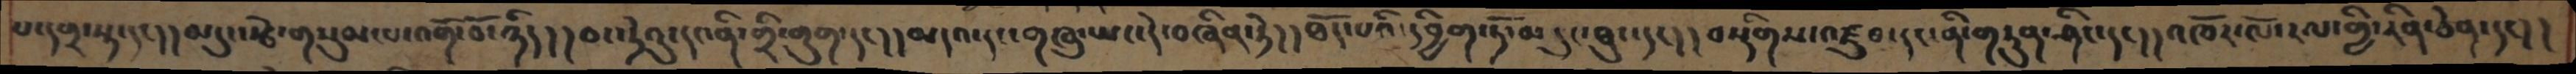པ་དགྲ་སྟ་དང། །མདུང་རྩེ་གསུམ་པ་འགོ་བོ་ཉིད། །ཅང་ཏེའུ་དང་ནི་གྲི་གུག་དང། །མདའ་དང་གཞུ་ཡང་དེ་བཞིན་ཏེ། །ཐོད་པའི་དབྱིག་ཏོ་མདུང་ཐུང་དང། །བསྡིགས་འཛུབ་དང་ནི་གཏུན་ཤིང་དང། །འཁོར་ལོ་རལ་གྱི་རིན་ཅེན་དང། །
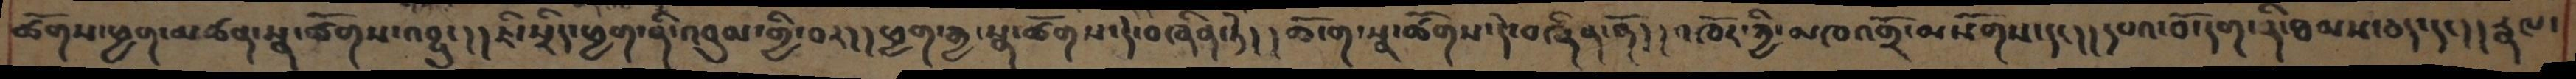ཚོགས་ཕྱག་མཚན་སྣ་ཚོགས་འབྱུང། །ཇི་སྲིད་ཕྱག་ནི་འབུམ་གྱི་བར། །ཕྱག་རྒྱ་སྣ་ཚོགས་དེ་བཞིན་ཏེ། །ཆོ་ག་སྣ་ཚོགས་དེ་བཞིན་ནོ། །འཁོར་ཀྱི་མཁའགྲོ་མསོགས་དང། །དཔའ་བོ་དག་ནི་ཐམས་ཅད་དང། །རྣལ་
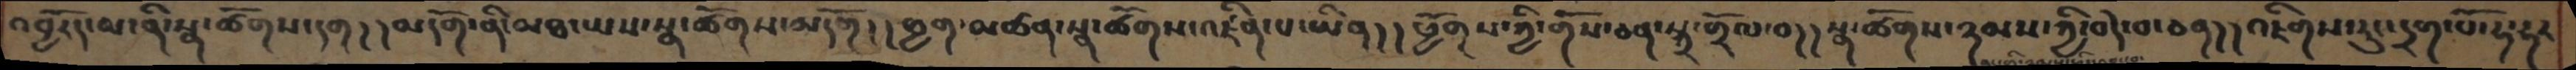འབྱོརད་མ་ནི་སྣ་ཚོགས་དག།།མདོག་ནི་མཐའ་ཡས་སྣ་ཚོགས་མདོག།།ཕྱག་མཚན་སྣ་ཚོགས་འཛིན་པ་ཡིན།།ཕྱོགས་ཀྱི་གོས་ཅན་སྐྲ་གྲོལ་བ།།སྣ་ཚོགས་ཉམས་ཀྱི་བདེ་བ་ཅན།།འཇིགས་རུང་དྲག་པོ་ཧ་ཧར
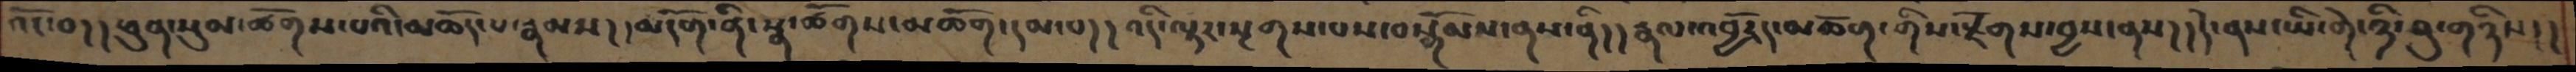འོང་བ། །ཕུན་སུམ་ཚོགས་པའི་མཆོད་པ་རྣམས། །མདོག་ནི་སྣ་ཚོགས་མཆོག་དམ་པ། །འདི་ལྟར་སྔགས་པས་བསྒོམས་ནས་ནི། །རྣལ་འབྱོར་མཆོག་གིས་རྫོགས་བྱས་ནས། །དེ་ནས་ཡི་གེ་ཉི་ཤུ་གཉིས།།
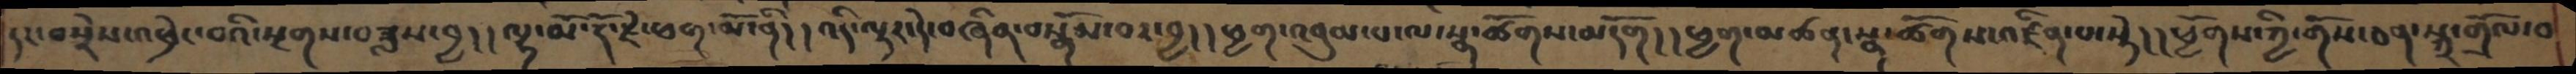དང་བསྲེས་འཕྲེང་བའི་སྔགས་བཟླས་བྱ། །ལྷ་མོ་རྡོ་རྗེ་ཕག་མོ་ནི། །འདི་ལྟར་དེ་བཞིན་བསྒོམ་བར་བྱ། །ཕྱག་འབུམ་པ་ལ་སྣ་ཚོགས་མདོག། །ཕྱག་མཚན་སྣ་ཚོགས་འཛིན་པ་སྟེ། །ཕྱོགས་ཀྱི་གོས་ཅན་སྐྲ་གྲོལ་བ
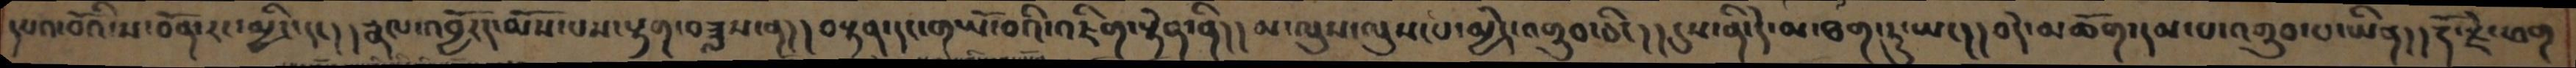དཔའ་བོའི་ས་བོན་རང་མྱིང་དང།།རྣལ་འབྱོརད་མོས་པས་རྟག་བཟླས་ན།།བསྟན་དང་གཡོ་བའི་འཇིག་རྟེན་ནི།།མ་ལུས་ལུས་པ་མྱེད་འགྲུབ་ཅིང།།དུས་ནི་དེ་མ་ཐག་ཏུ་ཡང།།བདེ་མཆོག་དམ་པ་འགྲུབ་པ་ཡིན།།རྡོ་རྗེ་ཕག
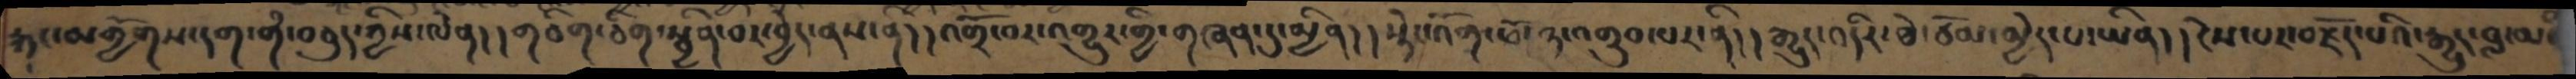རྐང་མགྱོགས་དག་གི་བཅུད་ཀྱིས་ལེན།།གཅིག་ཅིག་སྦྱིན་བར་བྱེད་ནས་ནི།།འགྲོ་བར་འགྱུར་གྱི་གཞན་དུ་མྱིན།།སྡེང་འོག་ཕོ་ཉ་འགྲུབ་པར་ནི།།རྒྱུད་འདིར་ཐེ་ཙོམ་མྱེད་པ་ཡིན།།ངེས་པར་བརྗོད་པའི་རྒྱུད་བླ་མའི
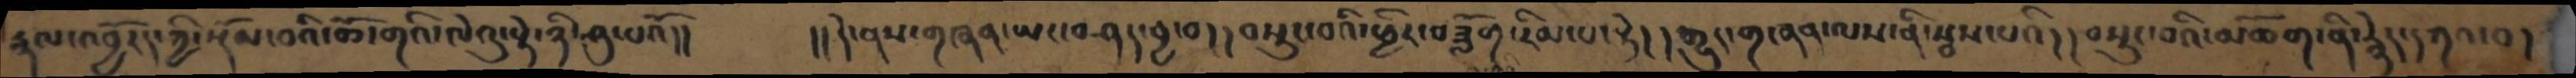རྣལ་འབྱོརད་ཀྱི་སྡོམ་བའི་ཆོ་གའི་ལེའུ་སྟེ་ཉི་ཤུ་པའོ།།    །།དེ་ནས་གཞན་ཡང་བཤད་བྱ་བ། །བསྲུང་བའི་ཕྱིར་བཟློག་རིམ་པ་སྟེ། །རྒྱུར་གཞན་ལས་ནི་སྦས་པའི། །བསྲུང་བའི་མཆོག་ནི་རྙེད་དཀའ་བ།
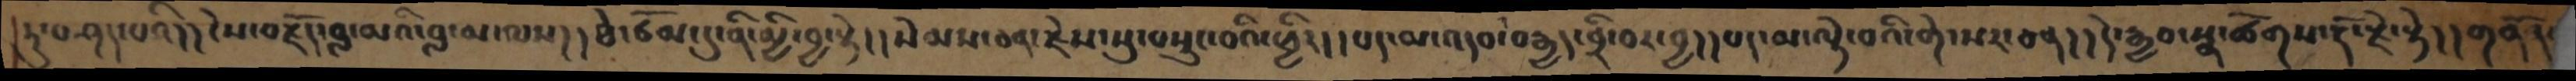ཏུ་བཤད་པའི། །ངེས་བརྗོད་བླ་མའི་བླ་མ་ལས།།ཐེ་ཙོམ་དུ་ནི་མྱི་བྱ་སྟེ།།སེམས་ཅན་རྗེས་སུ་བསྲུང་བའི་ཕྱིར།།པད་མ་འདབ་བརྒྱད་བྲི་བར་བྱ།།པད་མ་ལྟེ་བའི་གེ་སར་ཅན།།དེ་རྒྱབ་སྣ་ཚོགས་རྡོ་རྗེ་སྟེ།།གནོད་
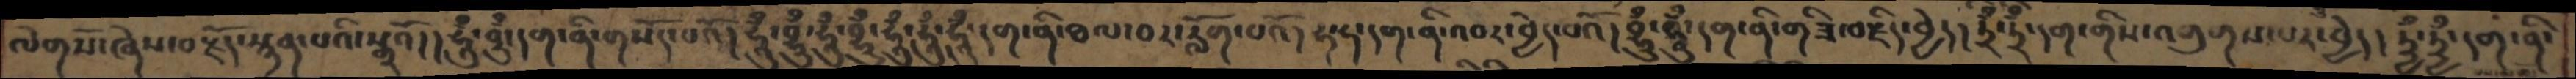ལེགསོ་ཞེས་བརྗོད་སྙན་པའི་སྒྲའོ། །ཧཱུྃ་བྷྲུྃ་དག་ནི་གསོད་པའོ། ཧཱུྃ་བྷྲུྃ་ཧཱུྃ་བྷྲུྃ་ཧཱུྃ་ཧཱུྃ་ཧཱུྃ་དག་ནི་ཐལ་བར་རློག་པའོ། ཧ་ཧ་དག་ནི་འབར་བྱེད་པའོ།  བྷྲུྃ བྷྲུྃ་དག་ནི་གཟི་བརྗིད་བྱེད། ཏྲྃ་ཏྲྃ་དག་གིས་འགུགས་པར་བྱེད། ཏྱྃ་ཏྱྃ་དག་ནི་
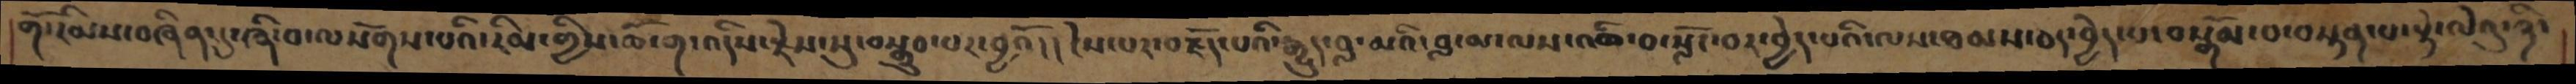གོ་རིམས་བཞིན་དུ་ཞི་བ་ལསོགས་པའི་རིམ་གྱིས་ཆོ་ག་འདིས་རྗེས་སུ་བསྒྲུབ་པར་བྱའོ། །ངེས་པར་བརྗོད་པའི་རྒྱུད་བླ་མའི་བླ་མ་ལས་འཆི་བ་སློང་བར་བྱེད་པའི་ལས་ཐམས་ཅད་བྱེད་པ་བསྒོམ་བ་བསྟན་པ་སྟེ་ལེའུ་ཉི་
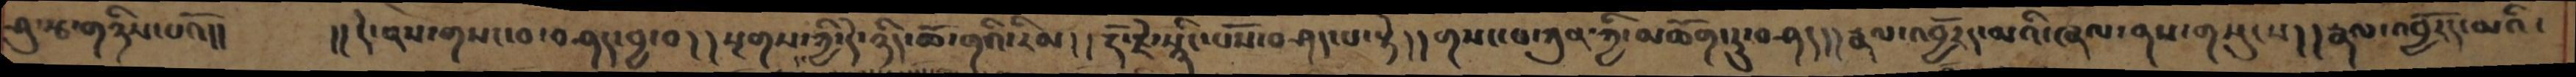ཤུ་རྩ་གཉིས་པའོ།།    །།དེ་ནས་གསང་བ་བཤད་བྱ་བ། །སྔགས་ཀྱི་དེ་ཉིད་ཆོ་གའི་རིམ། །རྡོ་རྗེ་སྙིང་པོས་བཤད་པ་སྟེ། །གསང་བ་ཀུན་ཀྱི་མཆོག་ཏུ་བཤད། །རྣལ་འབྱོརད་མའི་ཞལ་ནས་གསུངས། །རྣལ་འབྱོརད་མའི་
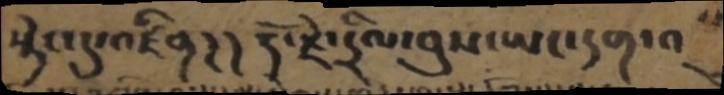སྡེང་དུ་འཛིན། །རྡོ་རྗེ་དྲིལ་བུས་ཡང་དག་འ
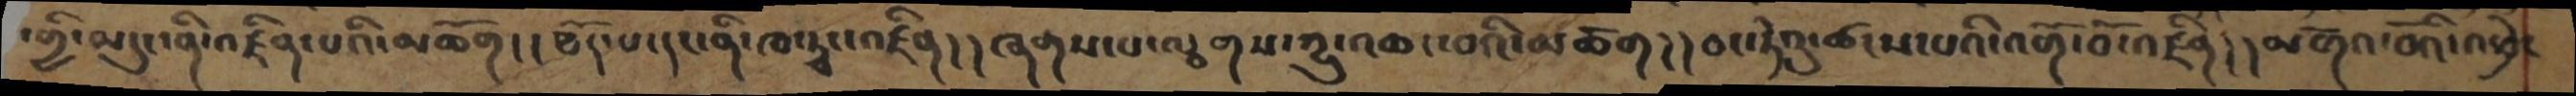་གྱི་མདུང་ནི་འཛིན་པའི་མཆོག། །ཐོད་པ་དང་ནི་ཁ་ཊྭང་འཛིན། །ཞགས་པ་ལྕགས་ཀྱུ་འཆང་བའི་མཆོག། །ཅང་ཏེའུ་ཚངས་པའི་འགོ་བོ་འཛིན། །མགོའ་བོའི་འཕྲེང
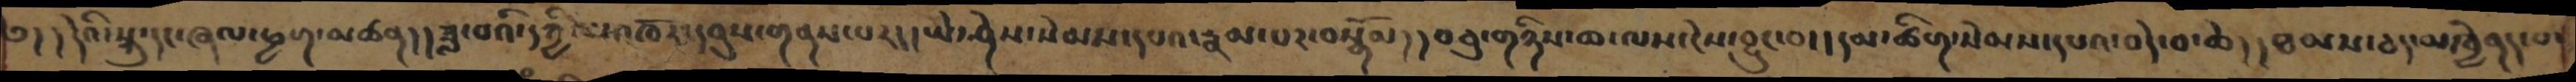༅། །དེའི་སྐུ་དང་ཞལ་ཕྱག་མཚན། །ཟླ་བའི་དཀྱིལ་འཁོར་དབུས་གནས་པར། །ཡེ་ཤེས་སེམས་དཔའ་རྣམ་པར་བསྒོམ། །བཅུ་གཉིས་ཆ་ལས་ངེས་བྱུང་བ། །དམ་ཚིག་སེམས་དཔའ་བདེ་བ་ཆེ། །ཐམས་ཅད་མཁྱེནད་པ་
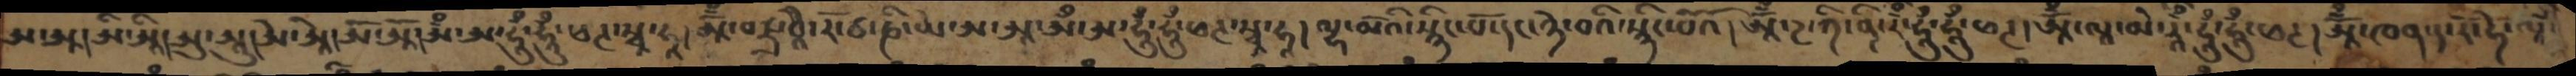ཨ་ཨཱ།ཨི་ཨཱི།ཨུ་ཨཱུ།ཨེ་ཨཱེ།ཨོ་ཨཱོ།ཨོྃ་ཨ་ཧཱུཾ་ཧཱུཾ་ཕཊ་སྭཱ་ཧཱ།ཨཱོྃ་བཛྲ་བཱཻ་རོ་ཙ་ཎི་ཡེ་ཨ་ཨཱ་ཨོྃ་ཨ་ཧཱུྃ་ཧཱུྃ་ཕཊ་སྭཱ་ཧཱ། ལྷ་མོའི་སྙིང་པོ་དང་ཉེ་བའི་སྙིང་པའོ། ཨཱོྃ་ཌ་ཀི་ནི་རྃ་ཧཱུྃ་ཧཱུཾ་ཕཊ། ཨཱོྃ་ལཱ་མེ་རཱྃ་ཧཱུྃ་ཧཱུྃ་ཕཊ། ཨཱོྃ་ཁན་ད་རོ་དྷེ་ལཱྃ་
